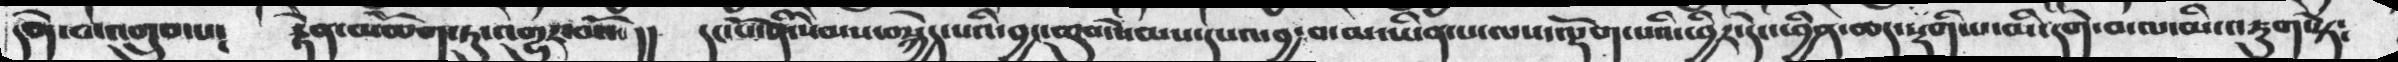དགེ་བ་འགྲུབ་པ༴  རྟེན་མཆོག་ཏུ་འགྱུར་བའོ་།།  དང་པོ་ནི་སེམས་བསྐྱེད་པའི་བྱང་ཆུབ་སེམས་དཔའ་བྱ་བ་མ་ཡིན་པ་ལས་ལྡོག་པའི་ཕྱིར་དེང་ཕྱིན་ཆད་སྡིག་པ་མི་དགེ་བ་ལ་མི་་འཇུགསཏེ༴
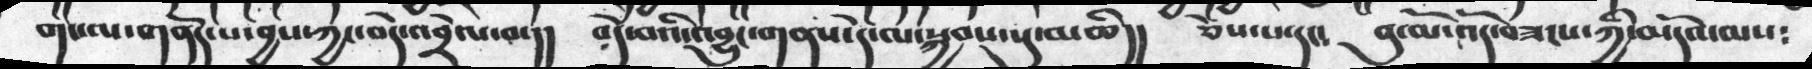གང་ལ་གནོད་པ་བྱས་ཀྱང་བདེ་འབྲེལ་བ་།།  བདེ་བའི་འབྱུང་གནས་དེ་ལ་སྐྱབས་སུ་མཆི།།  ཅེས་པ་དང༴  བུ་མོ་འོད་བཟངས་ཀྱི་མདོ་ལས༴
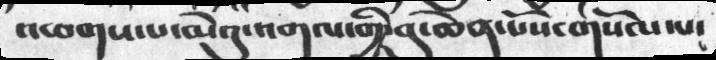འཕགས་པ་མེའུ་འགལ་གྱི་བུ་ཆེན་པོས་གསོལ་པ༴
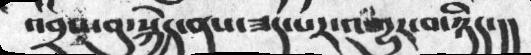འབྲས་བུ་སྐྱེད་ནས་ཟད་པར་འགྱུར་བ་ཉིད་།།
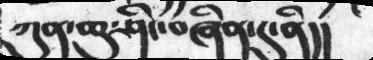ཀུན་ཆུ་ཤེང་བཞིན་དུ་ནི།།
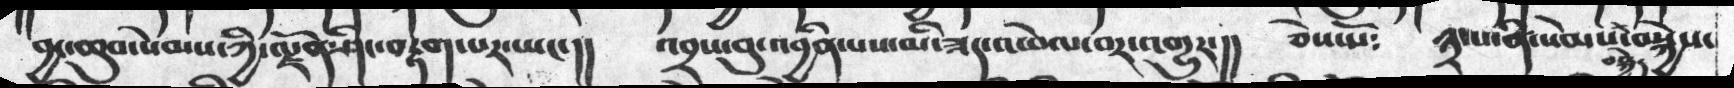བྱང་ཆུབ་སེམས་ཀྱི་ལྗོན་ཤིང་བརྟག་པར་ཡང་།།  འབྲས་བུ་འབྱིན་པས་མི་ཟད་འཕེལ་བར་འགྱུར་།།  ཅེས་སོ༴  ༣་པ་ནི་སེམས་བསྐྱེད་བསྐྱེས་
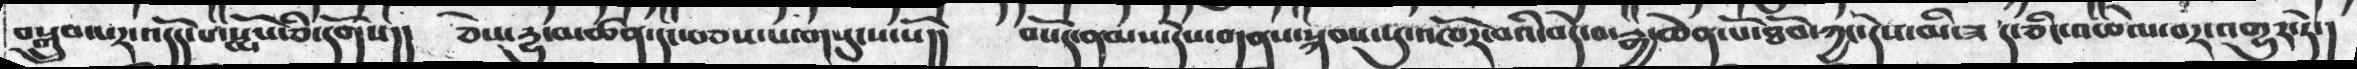བསྒྲུབ་པར་འདོད་པ་སྨོས་ཅི་དགོས།།   ཅེས་རྒྱུ་མཚན་དང་བཅས་པ་གསུངས་སོ།།    བསོད་ནམས་དེས་གནས་སྐབས་སུ་འཁོར་བའི་བདེ་བ་རྒྱ་ཆེན་པོ་ཐོབ་ཀྱང་དེས་མི་ཟད་ཅིང་འཕེལ་བར་འགྱུར་ཏེ་།
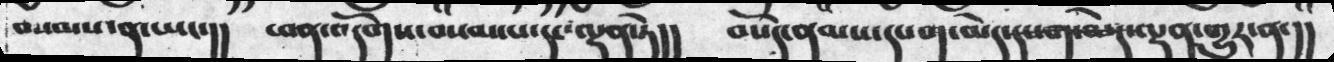བསམས་ན་ཡང་།།  ཕན་འདོགས་བསམས་པ་དང་ལྡན་ཏེ།།  བསོད་ནམས་དཔག་མེད་དཔག་མེད་ལྡན་གྱུར་ན་།།
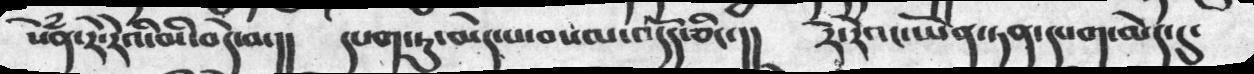སེཾན་རེ་རེའི་མི་བདེ་བ།།  དཔག་ཏུ་མེད་པ་བསམ་འདོད་ཅིང་།།   རེ་རེའང་ཡོན་ཏན་དཔག་མེད་དུ་
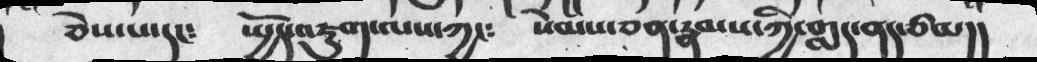ཅེས་པ་དང༴  སྤྱོད་འཇུག་ལས་ཀྱང༴  སེམས་ཅན་རྣམས་ཀྱི་གླད་ནད་ཙམ།།
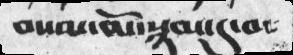བསམ་མོ་སྙམ་དུ་བ་
